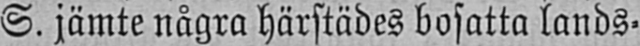S. jämte några härstädes bosatta lands-
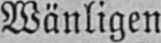Wänligen
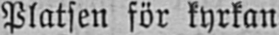Platsen för kyrkan.
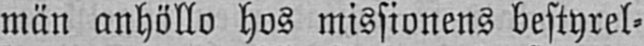män anhöllo hos missionens bestyrel-
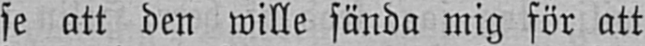se att den wille sända mig för att
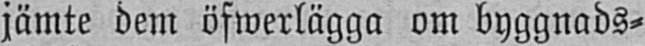jämte dem öfwerlägga om byggnads-
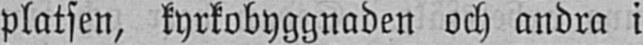platsen, kyrkobyggnaden och andra i
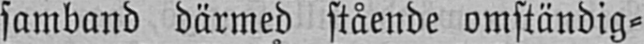samband därmed stående omständig-
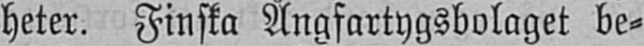heter. Finska Ångfartygsbolaget be-
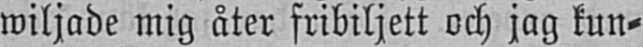wiljade mig åter fribiljett och jag kun-
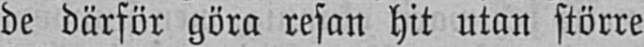de därför göra resan hit utan större
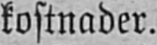kostnader.
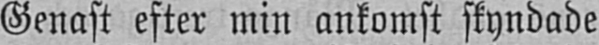Genast efter min ankomst skyndade
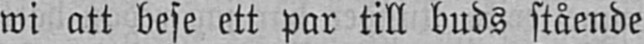wi att bese ett par till buds stående
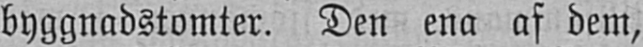byggnadstomter. Den ena af dem,
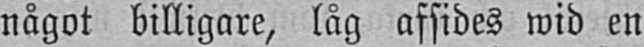något billigare, låg afsides wid en
